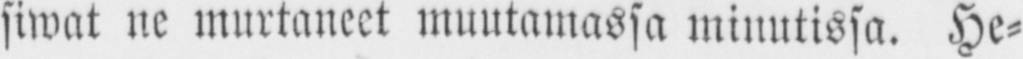siwat ne murtaneet muutamassa minutissa. He-
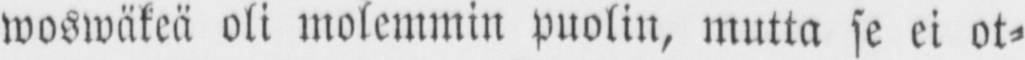woswäkeä oli molemmin puolin, mutta se ei ot-
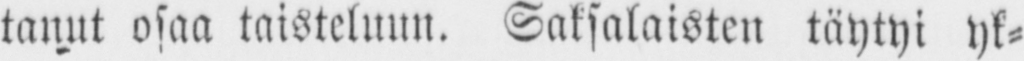tanut osaa taisteluun. Saksalaisten täytyi yk-
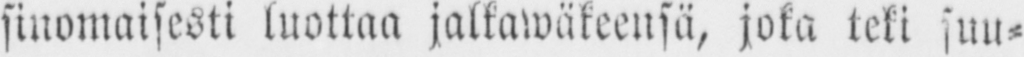sinomaisesti luottaa jaikawäkeensä, joka teki suu-
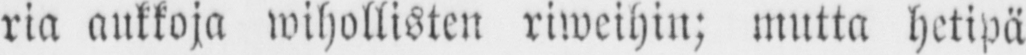ria aukkoja wihollisten riweihin; mutta hetipä
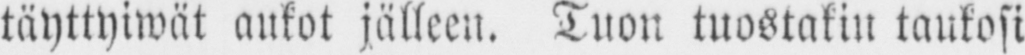täyttyiwät aukot jälleen. Tuon tuostakin taukosi
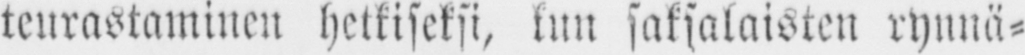teurastaminen hetkiseksi, kuu saksalaisten rynnä-
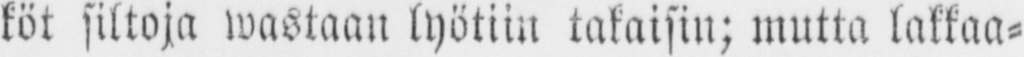köt siltoja wastaan lyötiin takaisin; mutta lakkaa-
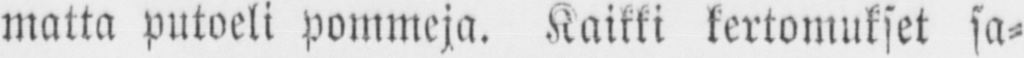matta putoeli pommeja, Kaikki kertomukset sa-
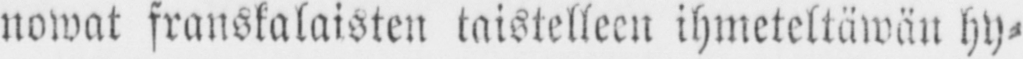nowat franskalaisten taistelleen ihmeteltäwän hy-
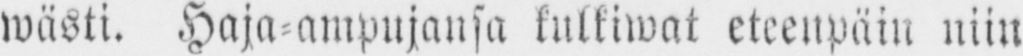wästi. Haja-ampujansa kulkiwat eteenpäin niin
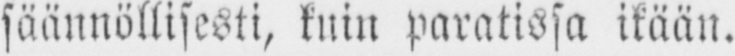säännöllisesti, kuin paratissa ikään.
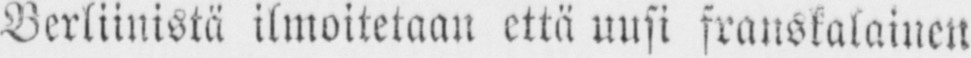Berliinistä ilmoitetaan että uusi franskalainen
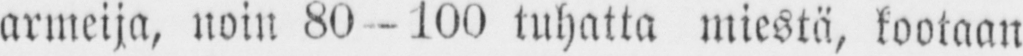armeija, noin 80-100 tuhatta miestä, kootaan
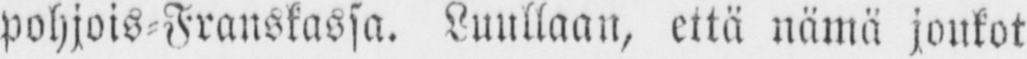pohjois-Franskassa. Luullaan, että nämä joukot
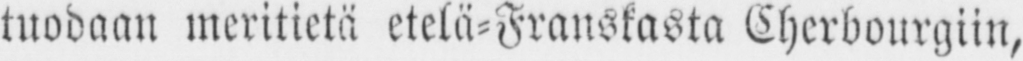tuodaan meritietä etelä-Franskasta Cherbourgiin,
